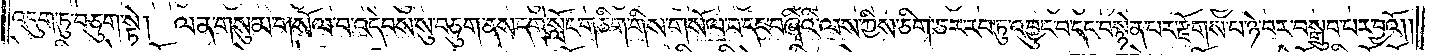འདུག་ཏུ་བཅུག་སྟེ། ལན་གསུམ་གསོལ་བ་འདེབས་སུ་བཅུག་ནས་དགེ་སློང་གཅིག་གིས་གསོལ་བ་དང་བཞིའི་ལས་ཀྱིས་ཅིག་ཅར་རབ་ཏུ་འབྱུང་བ་དང་བསྙེན་པར་རྫོགས་པ་ཉེ་བར་བསྒྲུབ་པར་བྱའོ༎
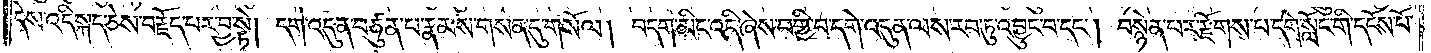དེས་འདི་སྐད་ཅེས་བརྗོད་པར་བྱ་སྟེ། དགེ་འདུན་བཙུན་པ་རྣམས་གསན་དུ་གསོལ། བདག་མིང་འདི་ཞེས་བགྱི་བ་དགེ་འདུན་ལས་རབ་ཏུ་འབྱུང་བ་དང༌། བསྙེན་པར་རྫོགས་པ་དགེ་སློང་གི་དངོས་པོ་
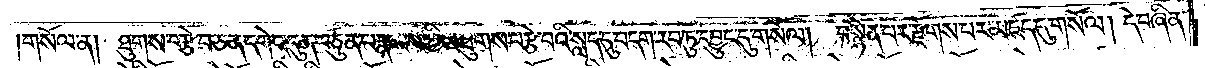གསོལ་ན། ཐུགས་བརྩེ་བ་ཅན་དགེ་འདུན་བཙུན་པ་རྣམས་ཀྱིས་ཐུགས་བརྩེ་བའི་སླད་དུ་བདག་རབ་ཏུ་དབྱུང་དུ་གསོལ། བསྙེན་པར་རྫོགས་པར་མཛད་དུ་གསོལ། དེ་བཞིན་
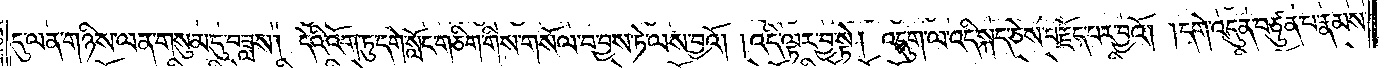དུ་ལན་གཉིས་ལན་གསུམ་དུ་བཟླས། དེའི་འོག་ཏུ་དགེ་སློང་གཅིག་གིས་གསོལ་བ་བྱས་ཏེ་ལས་བྱའོ། །འདི་ལྟར་བྱ་སྟེ། འདུག་ལ་འདི་སྐད་ཅེས་བརྗོད་པར་བྱའོ། །དགེ་འདུན་བཙུན་པ་རྣམས་
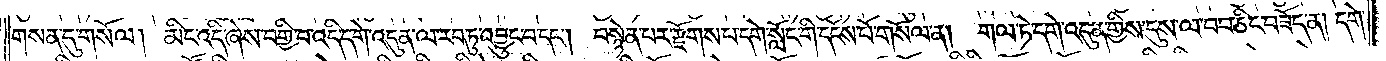གསན་དུ་གསོལ། མིང་འདི་ཞེས་བགྱི་བ་འདི་དགེ་འདུན་ལ་རབ་ཏུ་འབྱུང་བ་དང༌། བསྙེན་པར་རྫོགས་པ་དགེ་སློང་གི་དངོས་པོ་གསོལ་ན། གལ་ཏེ་དགེ་འདུན་གྱིས་དུས་ལ་བབ་ཅིང་བཟོད་ན། དགེ་
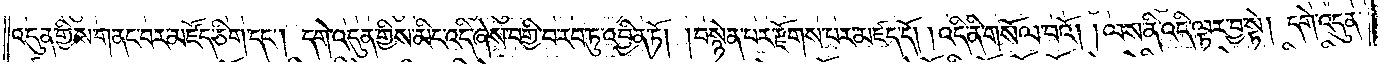འདུན་གྱིས་གནང་བར་མཛོད་ཅིག་དང༌། དགེ་འདུན་གྱིས་མིང་འདི་ཞེས་བགྱི་བ་རབ་ཏུ་འབྱིན་ཏོ། །བསྙེན་པར་རྫོགས་པར་མཛད་དོ། །འདི་ནི་གསོལ་བའོ། །ལས་ནི་འདི་ལྟར་བྱ་སྟེ། དགེ་འདུན་
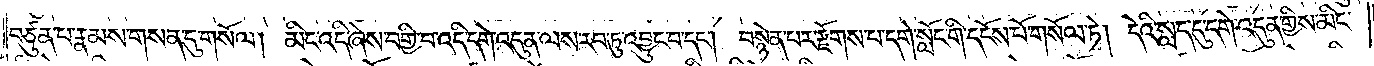བཙུན་པ་རྣམས་གསན་དུ་གསོལ། མིང་འདི་ཞེས་བགྱི་བ་འདི་དགེ་འདུན་ལས་རབ་ཏུ་འབྱུང་བ་དང༌། བསྙེན་པར་རྫོགས་པ་དགེ་སློང་གི་དངོས་པོ་གསོལ་ཏེ། དེའི་སླད་དུ་དགེ་འདུན་གྱིས་མིང་
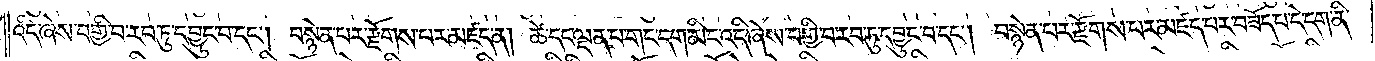འདི་ཞེས་བགྱི་བ་རབ་ཏུ་དབྱུང་བ་དང༌། བསྙེན་པར་རྫོགས་པར་མཛད་ན། ཚེ་དང་ལྡན་པ་གང་དག་མིང་འདི་ཞེས་བགྱི་བ་རབ་ཏུ་དབྱུང་བ་དང༌། བསྙེན་པར་རྫོགས་པར་མཛད་པར་བཟོད་པ་དེ་དག་ནི་
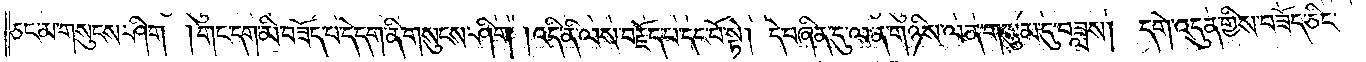ཅང་མ་གསུངས་ཤིག །གང་དག་མི་བཟོད་པ་དེ་དག་ནི་གསུངས་ཤིག །འདི་ནི་ལས་བརྗོད་པ་དང་པོ་སྟེ། དེ་བཞིན་དུ་ལན་གཉིས་ལན་གསུམ་དུ་བཟླས། དགེ་འདུན་གྱིས་བཟོད་ཅིང་
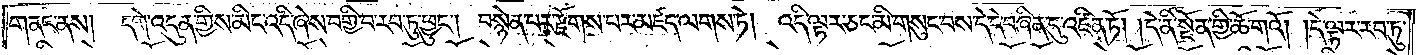གནང་ནས། དགེ་འདུན་གྱིས་མིང་འདི་ཞེས་བགྱི་བ་རབ་ཏུ་ཕྱུང༌། བསྙེན་པར་རྫོགས་པར་མཛད་ལགས་ཏེ། འདི་ལྟར་ཅང་མི་གསུང་བས་དེ་དེ་བཞིན་དུ་འཛིན་ཏོ། །དེ་ནི་སྔོན་གྱི་ཆོ་གའོ། །དེ་ལྟར་རབ་ཏུ་
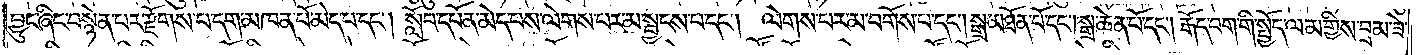བྱུང་ཞིང་བསྙེན་པར་རྫོགས་པ་དག་མཁན་པོ་མེད་པ་དང༌། སློབ་དཔོན་མེད་པས་ལེགས་པར་མ་སྦྱངས་པ་དང༌། ལེགས་པར་མ་བགོས་པ་དང༌། སྒྲ་མཐོན་པོ་དང༌། སྒྲ་ཆེན་པོ་དང༌། རྒོད་བག་གི་སྤྱོད་ལམ་གྱིས་བྲམ་ཟེ་
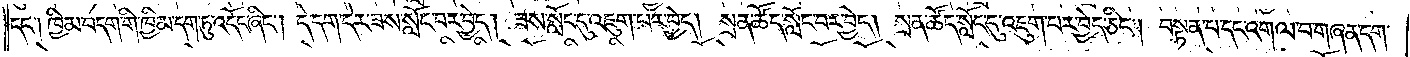དང༌། ཁྱིམ་བདག་གི་ཁྱིམ་དག་ཏུ་འདོང་ཞིང༌། དེ་དག་དེར་ཟས་སློང་བར་བྱེད། ཟས་སློང་དུ་འཇུག་པར་བྱེད། སྲན་ཚོད་སློང་བར་བྱེད། སྲན་ཚོད་སློང་དུ་འཇུག་པར་བྱེད་ཅིང༌། བསྟན་པ་དང་འགལ་བ་གཞན་དག་
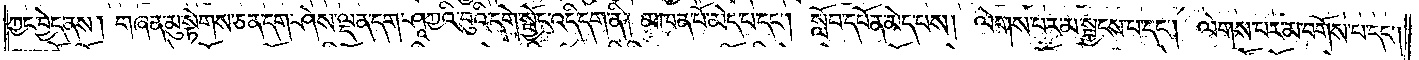ཀྱང་བྱེད་ནས། གཞན་མུ་སྟེགས་ཅན་དག་ཤེས་ལྡན་དག་ཤཱཀྱའི་བུའི་དགེ་སྦྱོང་འདི་དག་ནི། མཁན་པོ་མེད་པ་དང༌། སློབ་དཔོན་མེད་པས། ལེགས་པར་མ་སྦྱངས་པ་དང༌། ལེགས་པར་མ་བགོས་པ་དང༌།
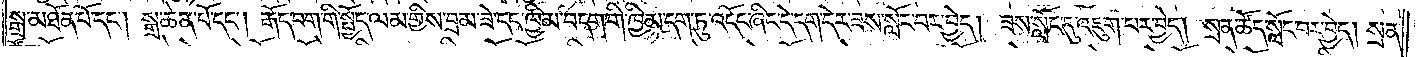སྒྲ་མཐོན་པོ་དང༌། སྒྲ་ཆེན་པོ་དང༌། རྒོད་བག་གི་སྤྱོད་ལམ་གྱིས་བྲམ་ཟེ་དང་ཁྱིམ་བདག་གི་ཁྱིམ་དག་ཏུ་འདོང་ཞིང་དེ་དག་དེར་ཟས་སློང་བར་བྱེད། ཟས་སློང་དུ་འཇུག་པར་བྱེད། སྲན་ཚོད་སློང་བར་བྱེད། སྲན་
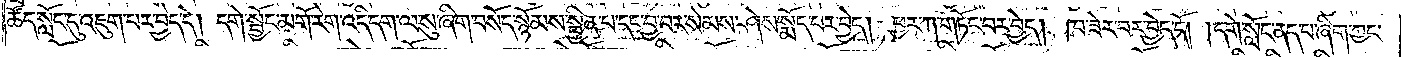ཚོད་སློང་དུ་འཇུག་པར་བྱེད་དེ། དགེ་སྦྱོང་མགོ་རེག་འདི་དག་ལ་སུ་ཞིག་བསོད་སྙོམས་སྦྱིན་པ་དང་བྱ་བར་སེམས་ཤེས་སྨོད་པར་བྱེད། ཕྱར་ཀ་གཏོང་བར་བྱེད། ཁ་ཟེར་བར་བྱེད་དོ། །དགེ་སློང་ནད་པ་ཞིག་ཀྱང་
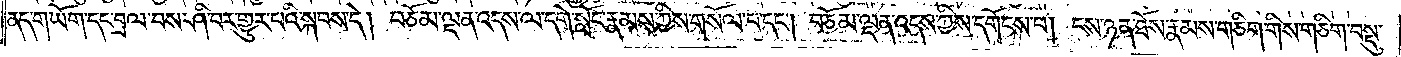ནད་གཡོག་དང་བྲལ་བས་ཤི་བར་གྱུར་པའི་སྐབས་དེ། བཅོམ་ལྡན་འདས་ལ་དགེ་སློང་རྣམས་ཀྱིས་གསོལ་པ་དང༌། བཅོམ་ལྡན་འདས་ཀྱིས་དགོངས་བ། ངས་ཉན་ཐོས་རྣམས་གཅིག་གིས་གཅིག་བསྡུ་
